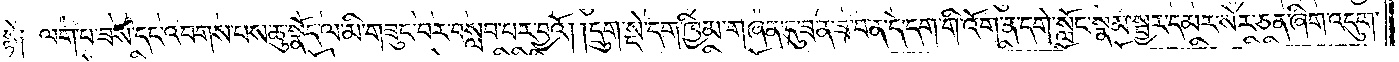སྟེ༑ ལག་པ་ཟས་དང་འབགས་པས་ཆུ་སྣོད་ལ་མི་གཟུང་བར་བསླབ་པར་བྱའོ། །དྲུག་སྡེ་དག་ཁྱིམ་གཞན་དུ་ཟན་ཟ་བ་ན་དེ་དག་གི་འོག་ན་དགེ་སློང་སྣམ་སྦྱར་དམར་སེར་ཅན་ཞིག་འདུག་
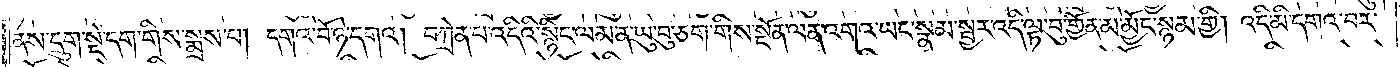ནས་དྲུག་སྡེ་དག་གིས་སྨྲས་པ། དགའ་བོ་ཉེ་དགའ། བཀྲེན་པ་འདིའི་སྙིང་ལམ་ན་ཡུ་བུ་ཅག་གིས་སྔོན་ལན་འགའ་ཡང་སྣམ་སྦྱར་འདི་ལྟ་བུ་གྱོན་མ་མྱོང་སྙམ་གྱི། འདི་མི་དགའ་བར་
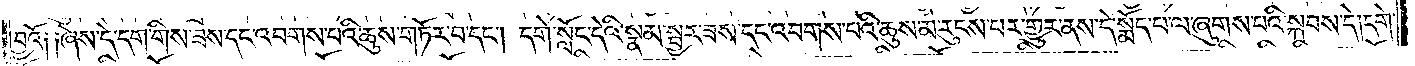བྱའོ༑ ༑ཞེས་དེ་དག་གིས་ཟས་དང་འབགས་པའི་ཆུས་གཏོར་བ་དང༌། དགེ་སློང་དེའི་སྣམ་སྦྱར་ཟས་དང་འབགས་པའི་ཆུས་མ་རུངས་པར་གྱུར་ནས་དེ་སྨོད་པ་ལ་ཞུགས་པའི་སྐབས་དེ། དགེ་
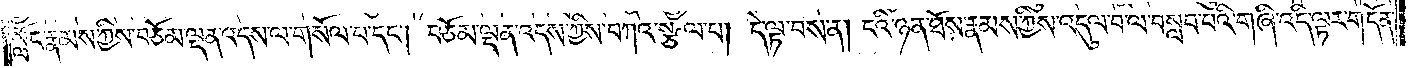སློང་རྣམས་ཀྱིས་བཅོམ་ལྡན་འདས་ལ་གསོལ་པ་དང༌། བཅོམ་ལྡན་འདས་ཀྱིས་བཀའ་སྩལ་པ། དེ་ལྟ་བས་ན། ངའི་ཉན་ཐོས་རྣམས་ཀྱིས་འདུལ་བ་ལ་བསླབ་པའི་གཞི་འདི་ལྟར་གདོན་
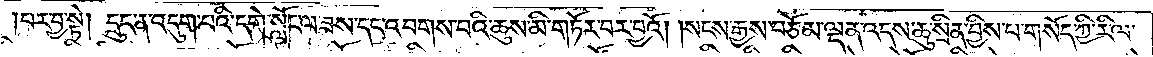པར་བྱ་སྟེ། དྲུང་ན་འདུག་པའི་དགེ་སློང་ལ་ཟས་དང་འབགས་པའི་ཆུས་མི་གཏོར་བར་བྱའོ། །སངས་རྒྱས་བཅོམ་ལྡན་འདས་ཆུ་སྲིན་བྱིས་པ་གསོད་ཀྱི་རི་ལ་
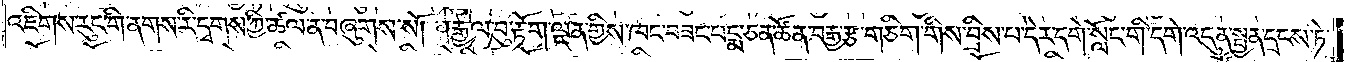འཇིགས་རུང་གི་ནགས་རི་དྭགས་ཀྱི་ཚལ་ན་བཞུགས་སོ། །རྒྱལ་བུ་རྟོག་ལྡན་གྱིས་ཁང་བཟང་པདྨ་ཅན་ཚོན་བརྒྱ་རྩ་གཅིག་གིས་བྲིས་པ་དེར་དགེ་སློང་གི་དགེ་འདུན་སྤྱན་དྲངས་ཏེ་
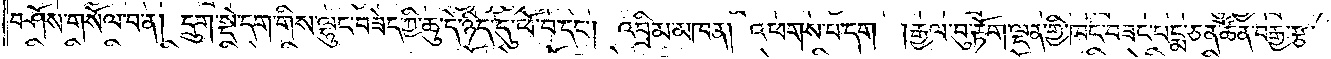བཤོས་གསོལ་པ་ན། དྲུག་སྡེ་དག་གིས་ལྷུང་བཟེད་ཀྱི་ཆུ་དེ་ཉིད་དུ་ཕོ་བ་དང༌། འབྲིམ་མཁན། འཕགས་པ་དག །རྒྱལ་བུ་རྟོག་ལྡན་གྱི་ཁང་བཟང་པདྨ་ཅན་ཚོན་བརྒྱ་རྩ་
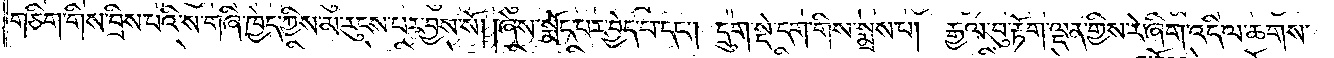གཅིག་གིས་བྲིས་པའི་ས་གཞི་ཁྱེད་ཀྱིས་མ་རུངས་པར་བྱས་སོ། །ཞེས་སྨོད་པར་བྱེད་པ་དང༌། དྲུག་སྡེ་དག་གིས་སྨྲས་པ། རྒྱལ་བུ་རྟོག་ལྡན་གྱིས་རེ་ཞིག་འདི་ལ་ཆགས་
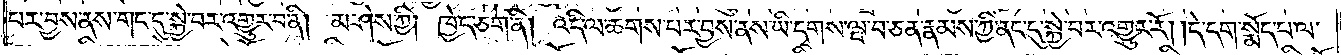པར་བྱས་ནས་གང་དུ་སྐྱེ་བར་འགྱུར་བ་ནི། མ་ཤེས་ཀྱི། ཁྱེད་ཅག་ནི། འདི་ལ་ཆགས་པར་བྱས་ནས་ཡི་དྭགས་ལྔ་པ་ཅན་རྣམས་ཀྱི་ནང་དུ་སྐྱེ་བར་འགྱུར་རོ། །དེ་དག་སྨོད་པ་ལ་
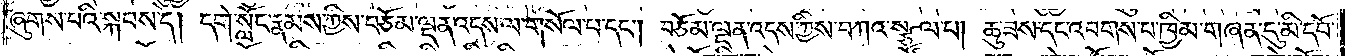ཞུགས་པའི་སྐབས་དེ། དགེ་སློང་རྣམས་ཀྱིས་བཅོམ་ལྡན་འདས་ལ་གསོལ་པ་དང༌། བཅོམ་ལྡན་འདས་ཀྱིས་བཀའ་སྩལ་པ། ཆུ་ཟས་དང་འབགས་པ་ཁྱིམ་གཞན་དུ་མི་དབོ་
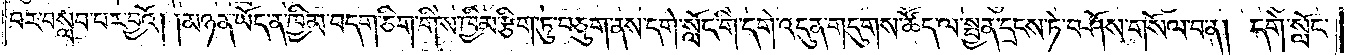པར་བསླབ་པར་བྱའོ། །མཉན་ཡོད་ན་ཁྱིམ་བདག་ཅིག་གིས་ཁྱིམ་རྩིག་ཏུ་བཅུག་ནས་དགེ་སློང་གི་དགེ་འདུན་གདུགས་ཚོད་ལ་སྤྱན་དྲངས་ཏེ་བཤོས་གསོལ་པ་ན། དགེ་སློང་
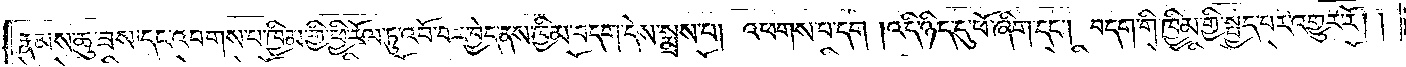རྣམས་ཆུ་ཟས་དང་འབགས་པ་ཁྱིམ་གྱི་ཕྱི་རོལ་ཏུ་འབོ་བར་བྱེད་ནས་ཁྱིམ་བདག་དེས་སྨྲས་པ། འཕགས་པ་དག །འདི་ཉིད་དུ་ཕོ་ཞིག་དང༌། བདག་གི་ཁྱིམ་གྱི་སྤྱད་པར་འགྱུར་རོ། །
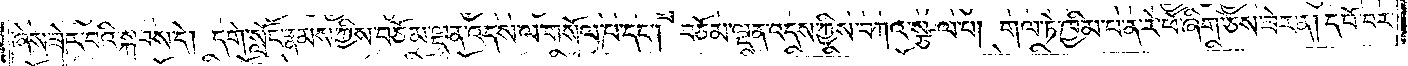ཞེས་ཟེར་བའི་སྐབས་དེ། དགེ་སློང་རྣམས་ཀྱིས་བཅོམ་ལྡན་འདས་ལ་གསོལ་པ་དང༌། བཅོམ་ལྡན་འདས་ཀྱིས་བཀའ་སྩལ་པ། གལ་ཏེ་ཁྱིམ་པ་ན་རེ་ཕོ་ཞིག་ཅེས་ཟེར་ན། དབོ་བར་
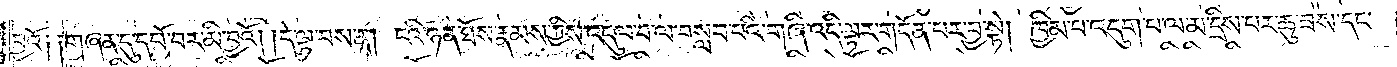བྱའོ༑ ༑གཞན་དུ་དབོ་བར་མི་བྱའོ། །དེ་ལྟ་བས་ན། ངའི་ཉན་ཐོས་རྣམས་ཀྱིས་འདུལ་བ་ལ་བསླབ་པའི་གཞི་འདི་ལྟར་གདོན་པར་བྱ་སྟེ། ཁྱིམ་པ་འདུག་པ་ལ་མ་དྲིས་པར་ཆུ་ཟས་དང༌།
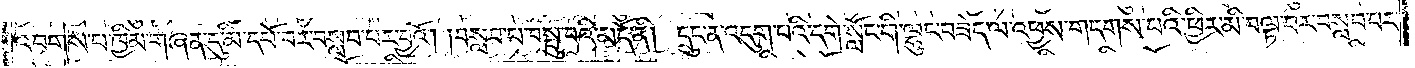འབགས་པ་ཁྱིམ་གཞན་དུ་མི་དབོ་བར་བསླབ་པར་བྱའོ། །བསླབ་པ་བསྡུ་བའི་མདོ་ནི། དྲུང་ན་འདུག་པའི་དགེ་སློང་གི་ལྷུང་བཟེད་ལ་འཕྱས་གདགས་པའི་ཕྱིར་མི་བལྟ་བར་བསླབ་པར་
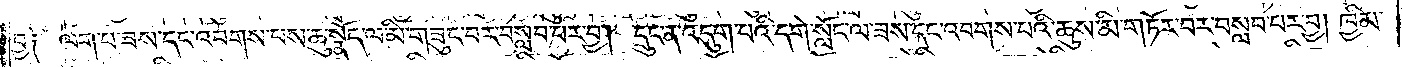བྱ༑ ལག་པ་ཟས་དང་འབགས་པས་ཆུ་སྣོད་ལ་མི་གཟུང་བར་བསླབ་པར་བྱ། དྲུང་ན་འདུག་པའི་དགེ་སློང་ལ་ཟས་དང་འབགས་པའི་ཆུས་མི་གཏོར་བསླབ་པར་བྱ། ཁྱིམ་
